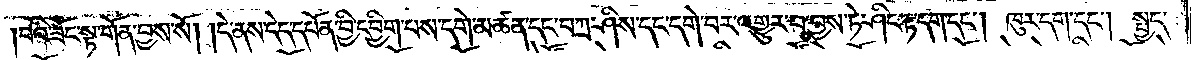བའི་ཟོང་སྟ་གོན་བྱས་སོ། །དེ་ནས་དེད་དཔོན་བྱི་དབྱིག་པས་དགེ་མཚན་དང་བཀྲ་ཤིས་དང་དགེ་བར་འགྱུར་བ་བྱས་ཏེ་ཤིང་རྟ་དག་དང༌། ཁུར་དག་དང༌། སྤྱད་
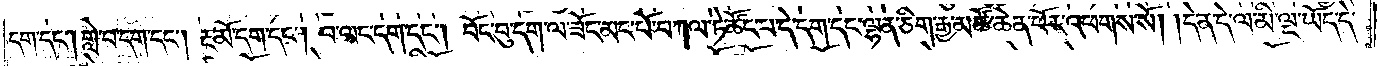དག་དང༌། གླེ་བ་དག་དང༌། རྔ་མོ་དག་དང༌། བ་ལང་དག་དང༌། བོང་བུ་དག་ལ་ཟོང་མང་པོ་བཀལ་ཏེ་ཚོང་པ་དེ་དག་དང་ལྷན་ཅིག་རྒྱ་མཚོ་ཆེན་པོར་འཕགས་སོ། །དེ་ན་དེ་ལ་མི་ལྔ་ཡོད་དེ་
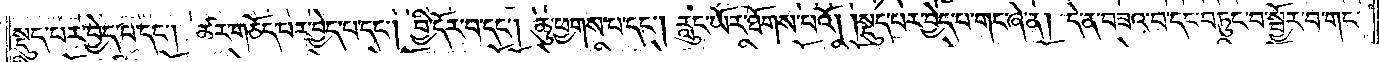སྡུད་པར་བྱེད་པ་དང༌། ཚར་གཅོད་པར་བྱེད་པ་དང༌། བྱི་དོར་བ་དང༌། ཆུ་ཕྱགས་པ་དང༌། རླུང་ཡོར་ཐོགས་པའོ། །སྡུད་པར་བྱེད་པ་གང་ཞེ་ན། དེ་ན་བཟའ་བ་དང་བཏུང་བ་སྦྱོར་བ་གང་
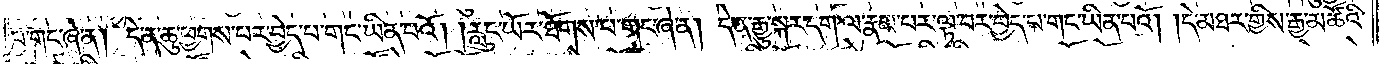པ་གང་ཞེ་ན། དེ་ན་ཆུ་ཕྱགས་པར་བྱེད་པ་གང་ཡིན་པའོ། །རླུང་ཡོར་ཐོགས་པ་གང་ཞེ་ན། དེ་ན་རྒྱུ་སྐར་དག་ལ་རྣམ་པར་ལྟ་བར་བྱེད་པ་གང་ཡིན་པའོ། །དེ་མཐར་གྱིས་རྒྱ་མཚོའི་
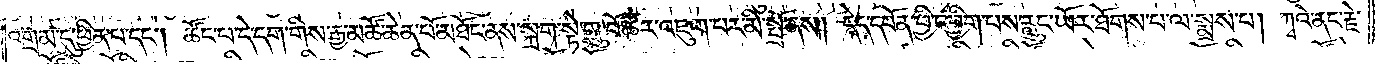འགྲམ་དུ་ཕྱིན་པ་དང༌། ཚོང་པ་དེ་དག་གིས་རྒྱ་མཚོ་ཆེན་པོ་མཐོང་ནས་སྐྲག་སྟེ་གྲུ་བོ་ཆེར་འཇུག་པར་མི་སྤྲོ་ནས། དེད་དཔོན་བྱི་དབྱིག་པས་རླུང་ཡོར་ཐོགས་པ་ལ་སྨྲས་པ། ཀྭའེ་ནང་རྗེ་
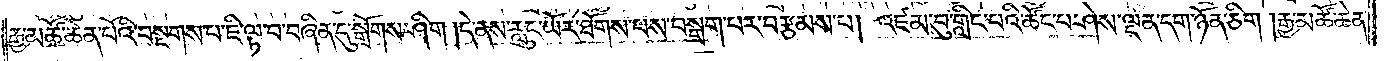རྒྱ་མཚོ་ཆེན་པོའི་བསྔགས་པ་ཇི་ལྟ་བ་བཞིན་དུ་སྒྲོགས་ཤིག །དེ་ནས་རླུང་ཡོར་ཐོགས་པས་བསྒྲག་པར་བརྩམས་པ། འཛམ་བུ་གླིང་པའི་ཚོང་པ་ཤེས་ལྡན་དག་ཉོན་ཅིག །རྒྱ་མཚོ་ཆེན་
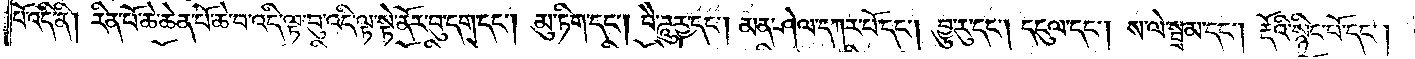པོ་འདི་ནི། རིན་པོ་ཆེ་ཆེན་པོ་ཆེ་བ་འདི་ལྟ་བུ་འདི་ལྟ་སྟེ་ནོར་བུ་དག་དང༌། མུ་ཏིག་དང༌། བཻཌཱུཪྻ་དང༌། མན་ཤེལ་དཀར་པོ་དང༌། བྱུ་རུ་དང༌། དངུལ་དང༌། ས་ལེ་སྦྲམ་དང༌། རྡོའི་སྙིང་པོ་དང༌།
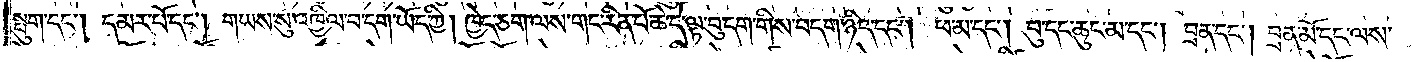སྤུག་དང༌། དམར་པོ་དང༌། གཡས་སུ་འཁྱིལ་བ་དག་ཡོད་ཀྱི། ཁྱེད་ཅག་ལས་གང་རིན་པོ་ཆེ་དེ་ལྟ་བུ་དག་གིས་བདག་ཉིད་དང༌། ཕ་མ་དང༌། བུ་དང་ཆུང་མ་དང༌། བྲན་དང༌། བྲན་མོ་དང་ལས་
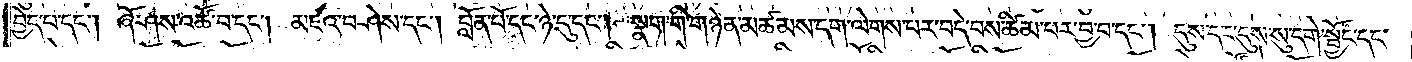བྱེད་པ་དང༌། ཞོ་ཤས་འཚོ་བ་དང༌། མཛའ་བཤེས་དང༌། བློན་པོ་དང་ཉེ་དུ་དང༌། སྣག་གི་གཉེན་མཚམས་དག་ལེགས་པར་བདེ་བས་ཚིམ་པར་བྱ་བ་དང༌། དུས་དང་དུས་སུ་དགེ་སྦྱོང་དང་
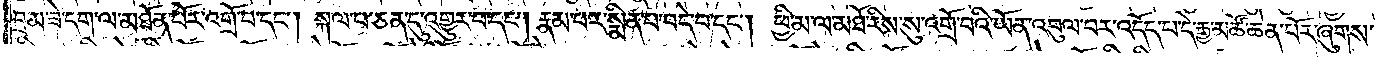བྲམ་ཟེ་དག་ལ་མཐོན་པོར་འགྲོ་བ་དང༌། སྐལ་བ་ཅན་དུ་འགྱུར་བ་དང༌། རྣམ་པར་སྨིན་པ་བདེ་བ་དང༌། ཕྱི་མ་ལ་མཐོ་རིས་སུ་འགྲོ་བའི་ཡོན་འབུལ་བར་འདོད་པ་དེ་རྒྱ་མཚོ་ཆེན་པོར་ཞུགས་
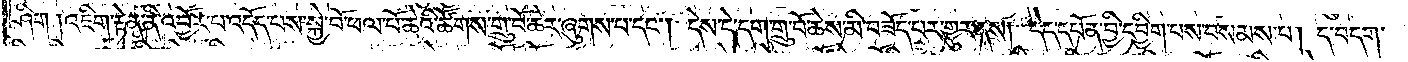ཤིག །འཇིག་རྟེན་ནི་འབྱོར་བ་འདོད་པས་སྐྱེ་བོ་ཕལ་པོ་ཆེའི་ཚོགས་གྲུ་བོ་ཆེར་ཞུགས་པ་དང༌། དེས་དེ་དག་གྲུ་བོ་ཆེས་མི་བཟོད་པར་གྱུར་ནས། དེད་དཔོན་བྱི་དབྱིག་པས་བསམས་པ། དེ་བདག་
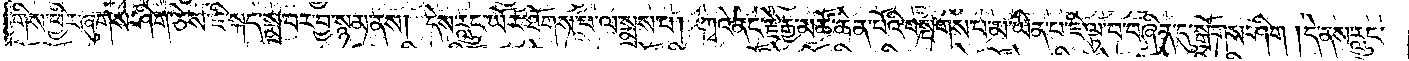གིས་ཕྱིར་ཞུགས་ཤིག་ཅེས་ཇི་སྐད་སྨྲ་བར་བྱ་སྙམ་ནས། དེས་རླུང་ཡོར་ཐོགས་པ་ལ་སྨྲས་པ། ཀྭའེ་ནང་རྗེ་རྒྱ་མཚོ་ཆེན་པོའི་བསྔགས་པ་མ་ཡིན་པ་ཇི་ལྟ་བ་བཞིན་དུ་སྒྲོགས་ཤིག །དེ་ནས་རླུང་
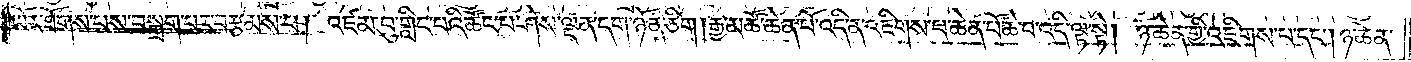ཡོར་ཐོགས་པས་བསྒྲག་པར་བརྩམས་པ། འཛམ་བུ་གླིང་པའི་ཚོང་པ་ཤེས་ལྡན་དག་ཉོན་ཅིག །རྒྱ་མཚོ་ཆེན་པོ་འདི་ན་འཇིགས་པ་ཆེན་པོ་ཆེ་བ་འདི་ལྟ་སྟེ། ཉ་ཆེན་གྱི་འཇིགས་པ་དང༌། ཉ་ཆེན་
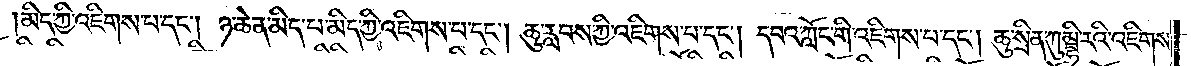མིད་ཀྱི་འཇིགས་པ་དང༌། ཉ་ཆེན་མིད་པ་མིད་ཀྱི་འཇིགས་པ་དང༌། ཆུ་རླབས་ཀྱི་འཇིགས་པ་དང༌། དབའ་ཀློང་གི་འཇིགས་པ་དང༌། ཆུ་སྲིན་ཀུམྦྷི་རའི་འཇིགས་
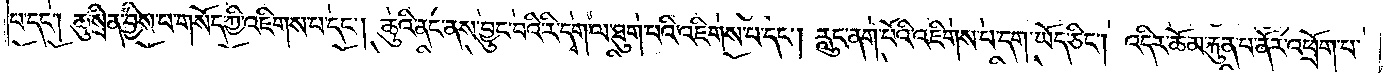པ་དང༌། ཆུ་སྲིན་བྱིས་པ་གསོད་ཀྱི་འཇིགས་པ་དང༌། ཆུའི་ནང་ནས་བྱུང་བའི་རི་དྭགས་ལ་ཐུག་པའི་འཇིགས་པ་དང༌། རླུང་ནག་པོའི་འཇིགས་པ་དག་ཡོད་ཅིང༌། འདིར་ཆོམ་རྐུན་པ་ནོར་འཕྲོག་པ་
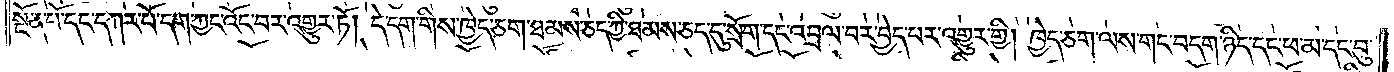སྔོན་པོ་དང་དཀར་པོ་དག་ཀྱང་འོང་བར་འགྱུར་རོ། །དེ་དག་གིས་ཁྱེད་ཅག་ཐམས་ཅད་ཀྱི་ཐམས་ཅད་དུ་སྲོག་དང་འབྲལ་བར་བྱེད་པར་འགྱུར་གྱི། ཁྱེད་ཅག་ལས་གང་བདག་ཉིད་དང་ཕ་མ་དང་བུ་
